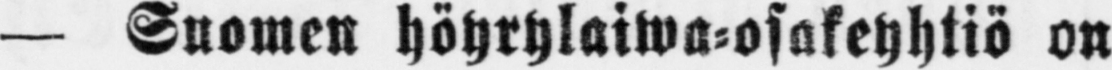— Suomen höyrylaiwa-osakeyhtiö on
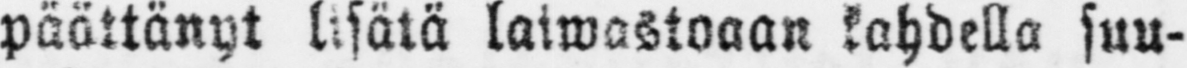päättänyt lisätä laiwastoaan kahdella suu-
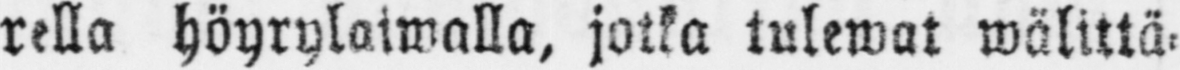rella höyrylaiwalla, jotka tulewat wälittä-
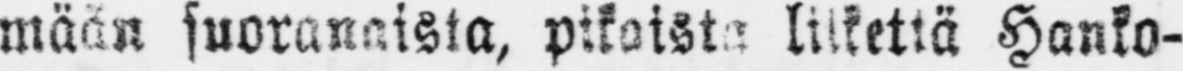mään suoranaista, pikaista lilkettä Hanko-
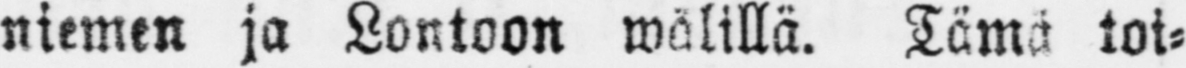niemen ja Lontoon wälillä. Tämä toi-
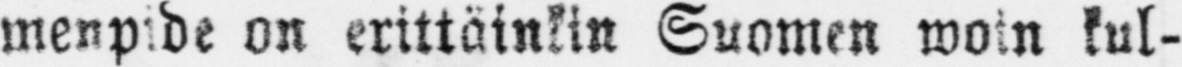menpide on erittäinkin Suomen woin kul-
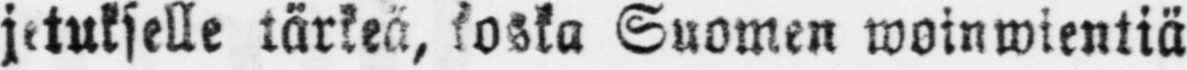jetukselle tärkeä, koska Suomen woinwientiä
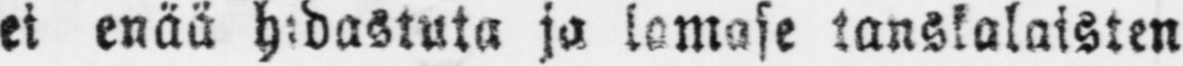ei enää hidastuta ja lamase tanskalaisten
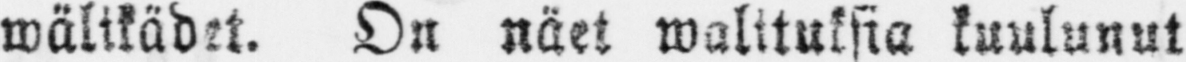wälikädet. On näet walituksia kuulunut
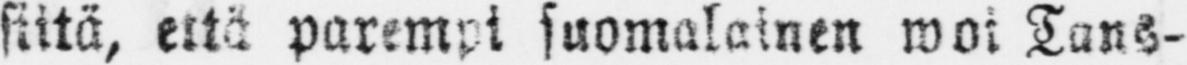siitä, että parempi suomalainen woi Tans-
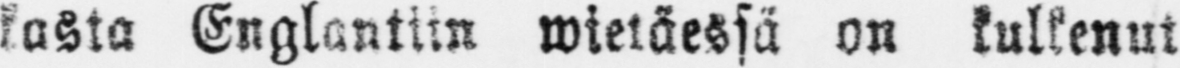kasta Englantiin wietäessä on kulkenut
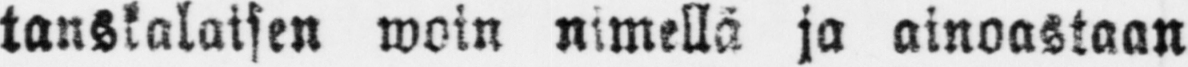tanskalaisen woin nimellä ja ainoastaan
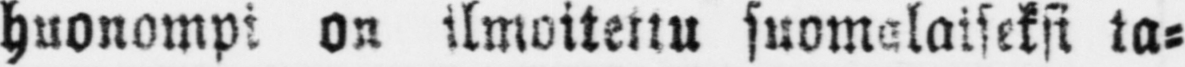huonompi on ilmoiteltu suomalaiseksi ta-
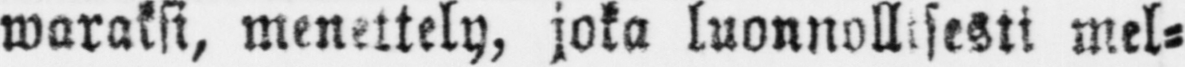waraksi, menettely, joka luonnollisesti mel-
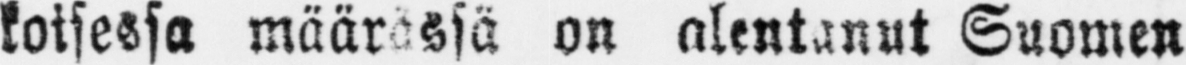koisessa määrässä on alentanut Suomen
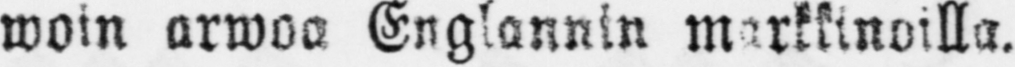woin arwoa Englannin markkinoilla.
